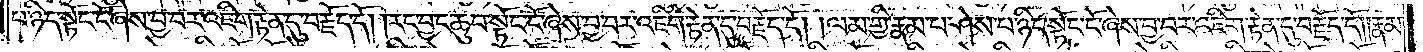པ་ཉིད་སྟོང་ངོ་ཞེས་བྱ་བར་འཇིག་རྟེན་དུ་བརྗོད་དོ། །རང་བྱང་ཆུབ་སྟོང་ངོ་ཞེས་བྱ་བར་འཇིག་རྟེན་དུ་བརྗོད་དོ། །ལམ་གྱི་རྣམ་པ་ཤེས་པ་ཉིད་སྟོང་ངོ་ཞེས་བྱ་བར་འཇིག་རྟེན་དུ་བརྗོད་དོ། །རྣམ་
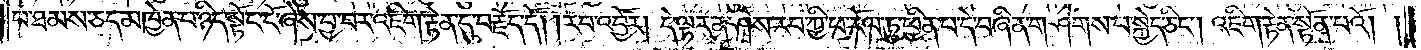པ་ཐམས་ཅད་མཁྱེན་པ་ཉིད་སྟོང་ངོ་ཞེས་བྱ་བར་འཇིག་རྟེན་དུ་བརྗོད་དོ། །རབ་འབྱོར། དེ་ལྟར་ན་ཤེས་རབ་ཀྱི་ཕ་རོལ་ཏུ་ཕྱིན་པ་དེ་བཞིན་གཤེགས་པ་སྐྱེད་ཅིང༌། འཇིག་རྟེན་སྟོན་པའོ། །
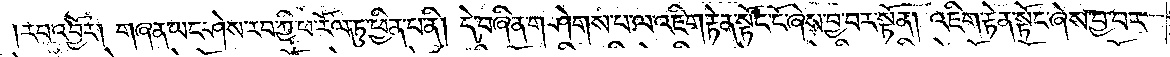རབ་འབྱོར། གཞན་ཡང་ཤེས་རབ་ཀྱི་ཕ་རོལ་ཏུ་ཕྱིན་པ་ནི། དེ་བཞིན་གཤེགས་པ་ལ་འཇིག་རྟེན་སྟོང་ངོ་ཞེས་བྱ་བར་སྟོན། འཇིག་རྟེན་སྟོང་ཞེས་བྱ་བར་
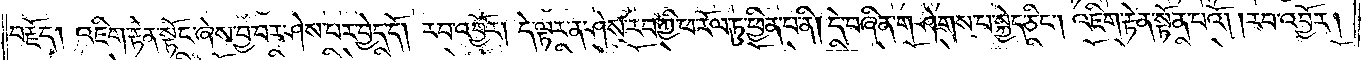བརྗོད། འཇིག་རྟེན་སྟོང་ཞེས་བྱ་བར་ཤེས་པར་བྱེད་དོ། རབ་འབྱོར། དེ་ལྟར་ན་ཤེས་རབ་ཀྱི་ཕ་རོལ་ཏུ་ཕྱིན་པ་ནི། དེ་བཞིན་གཤེགས་པ་བསྐྱེད་ཅིང༌། འཇིག་རྟེན་སྟོན་པའོ། །རབ་འབྱོར།
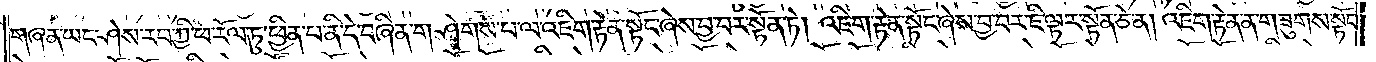གཞན་ཡང་ཤེས་རབ་ཀྱི་ཕ་རོལ་ཏུ་ཕྱིན་པ་ནི་དེ་བཞིན་གཤེགས་པ་ལ་འཇིག་རྟེན་སྟོང་ཞེས་བྱ་བར་སྟོན་ཏེ། འཇིག་རྟེན་སྟོང་ཞེས་བྱ་བར་ཇི་ལྟར་སྟོན་ཅེ་ན། འཇིག་རྟེན་ན་གཟུགས་སྟོང་
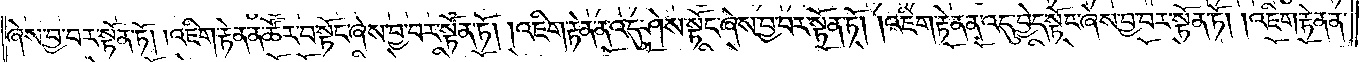ཞེས་བྱ་བར་སྟོན་ཏོ། །འཇིག་རྟེན་ན་ཚོར་བ་སྟོང་ཞེས་བྱ་བར་སྟོན་ཏོ། །འཇིག་རྟེན་ན་འདུ་ཤེས་སྟོང་ཞེས་བྱ་བར་སྟོན་ཏོ། །འཇིག་རྟེན་ན་འདུ་བྱེད་སྟོང་ཞེས་བྱ་བར་སྟོན་ཏོ། །འཇིག་རྟེན་ན་
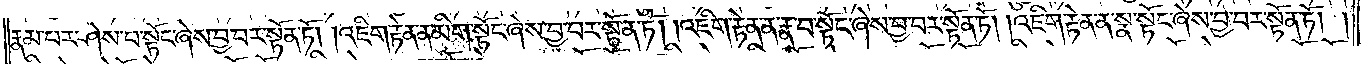རྣམ་པར་ཤེས་པ་སྟོང་ཞེས་བྱ་བར་སྟོན་ཏོ། །འཇིག་རྟེན་ན་མིག་སྟོང་ཞེས་བྱ་བར་སྟོན་ཏོ། །འཇིག་རྟེན་ན་རྣ་བ་སྟོང་ཞེས་བྱ་བར་སྟོན་ཏོ། །འཇིག་རྟེན་ན་སྣ་སྟོང་ཞེས་བྱ་བར་སྟོན་ཏོ། །
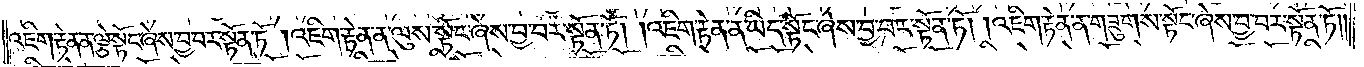འཇིག་རྟེན་ན་ལྕེ་སྟོང་ཞེས་བྱ་བར་སྟོན་ཏོ། །འཇིག་རྟེན་ན་ལུས་སྟོང་ཞེས་བྱ་བར་སྟོན་ཏོ། །འཇིག་རྟེན་ན་ཡིད་སྟོང་ཞེས་བྱ་བར་སྟོན་ཏོ། །འཇིག་རྟེན་ན་གཟུགས་སྟོང་ཞེས་བྱ་བར་སྟོན་ཏོ། །
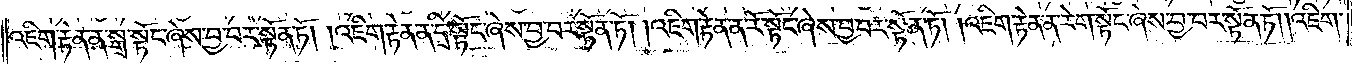འཇིག་རྟེན་ན་སྒྲ་སྟོང་ཞེས་བྱ་བར་སྟོན་ཏོ། །འཇིག་རྟེན་ན་དྲི་སྟོང་ཞེས་བྱ་བར་སྟོན་ཏོ། །འཇིག་རྟེན་ན་རོ་སྟོང་ཞེས་བྱ་བར་སྟོན་ཏོ། །འཇིག་རྟེན་ན་རེག་སྟོང་ཞེས་བྱ་བར་སྟོན་ཏོ། །འཇིག་
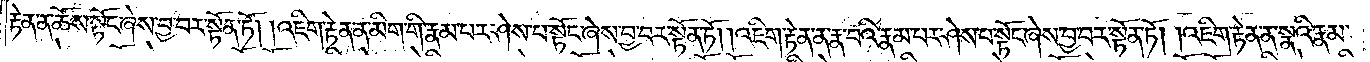རྟེན་ན་ཆོས་སྟོང་ཞེས་བྱ་བར་སྟོན་ཏོ། །འཇིག་རྟེན་ན་མིག་གི་རྣམ་པར་ཤེས་པ་སྟོང་ཞེས་བྱ་བར་སྟོན་ཏོ། །འཇིག་རྟེན་ན་རྣ་བའི་རྣམ་པར་ཤེས་པ་སྟོང་ཞེས་བྱ་བར་སྟོན་ཏོ། །འཇིག་རྟེན་ན་སྣའི་རྣམ་
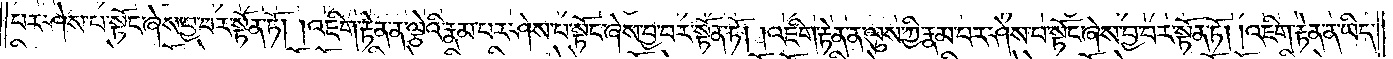པར་ཤེས་པ་སྟོང་ཞེས་བྱ་བར་སྟོན་ཏོ། །འཇིག་རྟེན་ན་ལྕེའི་རྣམ་པར་ཤེས་པ་སྟོང་ཞེས་བྱ་བར་སྟོན་ཏོ། །འཇིག་རྟེན་ན་ལུས་ཀྱི་རྣམ་པར་ཤེས་པ་སྟོང་ཞེས་བྱ་བར་སྟོན་ཏོ། །འཇིག་རྟེན་ན་ཡིད་
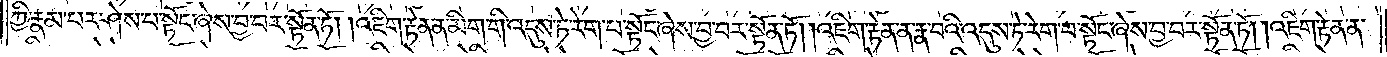ཀྱི་རྣམ་པར་ཤེས་པ་སྟོང་ཞེས་བྱ་བར་སྟོན་ཏོ། །འཇིག་རྟེན་ན་མིག་གི་འདུས་ཏེ་རེག་པ་སྟོང་ཞེས་བྱ་བར་སྟོན་ཏོ། །འཇིག་རྟེན་ན་རྣ་བའི་འདུས་ཏེ་རེག་པ་སྟོང་ཞེས་བྱ་བར་སྟོན་ཏོ། །འཇིག་རྟེན་ན་
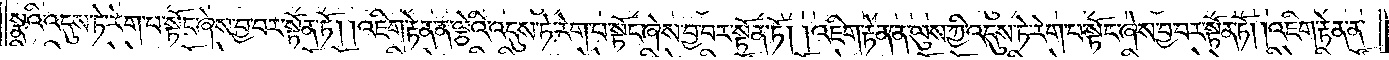སྣའི་འདུས་ཏེ་རེག་པ་སྟོང་ཞེས་བྱ་བར་སྟོན་ཏོ། །འཇིག་རྟེན་ན་ལྕེའི་འདུས་ཏེ་རེག་པ་སྟོང་ཞེས་བྱ་བར་སྟོན་ཏོ། །འཇིག་རྟེན་ན་ལུས་ཀྱི་འདུས་ཏེ་རེག་པ་སྟོང་ཞེས་བྱ་བར་སྟོན་ཏོ། །འཇིག་རྟེན་ན་
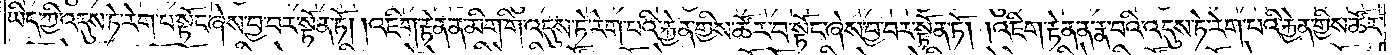ཡིད་ཀྱི་འདུས་ཏེ་རེག་པ་སྟོང་ཞེས་བྱ་བར་སྟོན་ཏོ། །འཇིག་རྟེན་ན་མིག་གི་འདུས་ཏེ་རེག་པའི་རྐྱེན་གྱིས་ཚོར་བ་སྟོང་ཞེས་བྱ་བར་སྟོན་ཏོ། །འཇིག་རྟེན་ན་རྣ་བའི་འདུས་ཏེ་རེག་པའི་རྐྱེན་གྱིས་ཚོར་
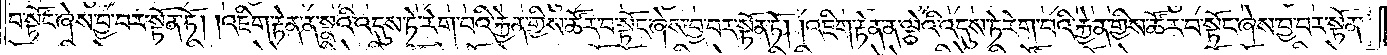བ་སྟོང་ཞེས་བྱ་བར་སྟོན་ཏོ། །འཇིག་རྟེན་ན་སྣའི་འདུས་ཏེ་རེག་པའི་རྐྱེན་གྱིས་ཚོར་བ་སྟོང་ཞེས་བྱ་བར་སྟོན་ཏོ། །འཇིག་རྟེན་ན་ལྕེའི་འདུས་ཏེ་རེག་པའི་རྐྱེན་གྱིས་ཚོར་བ་སྟོང་ཞེས་བྱ་བར་སྟོན་
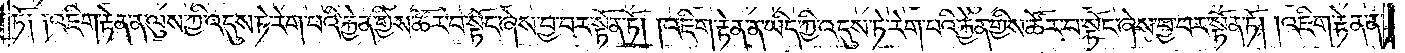ཏོ༑ ༑འཇིག་རྟེན་ན་ལུས་ཀྱི་འདུས་ཏེ་རེག་པའི་རྐྱེན་གྱིས་ཚོར་བ་སྟོང་ཞེས་བྱ་བར་སྟོན་ཏོ། །འཇིག་རྟེན་ན་ཡིད་ཀྱི་འདུས་ཏེ་རེག་པའི་རྐྱེན་གྱིས་ཚོར་བ་སྟོང་ཞེས་བྱ་བར་སྟོན་ཏོ། །འཇིག་རྟེན་ན་
